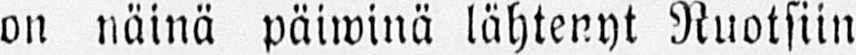on näinä päiwinä lähtenyt Ruotsiin
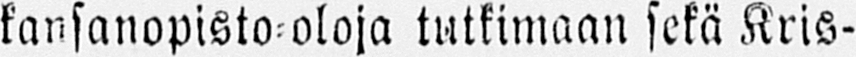kansanopisto-oloja tutkimaan sekä Kris-
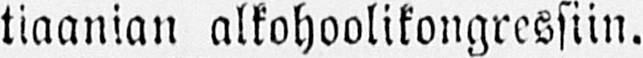tiaanian alkohoolikongressiin.
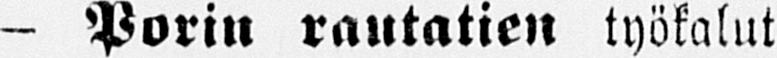— Porin rautatien työkalut
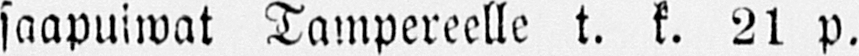saapuiwat Tampereelle t. k. 21 p.
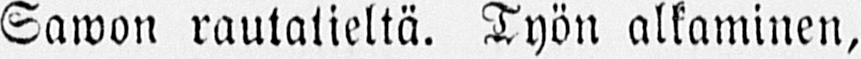Sawon rautatieltä. Työn alkaminen,
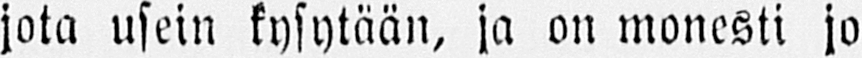jota usein kysytään, ja on monesti jo
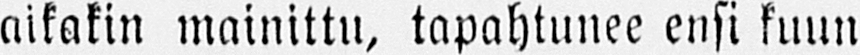aikakin mainittu, tapahtunee ensi kuun
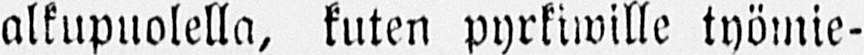alkupuolella, kuten pyrkiwille työmie-
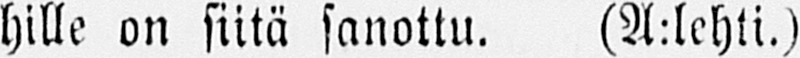hille on siitä sanottu. (A:lehti.)
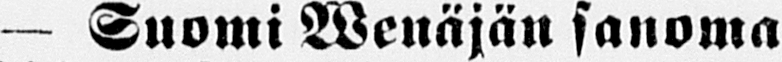— Suomi Wenäjän sanoma-
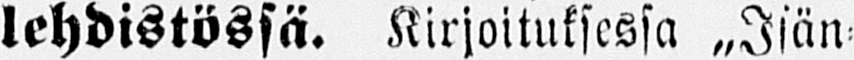lehdistössä. Kirjoituksessa „Isän-
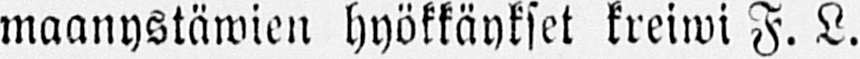maanystäwien hyökkäykset kreiwi F. L.
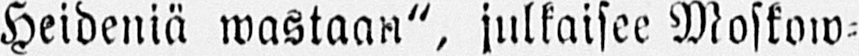Heideinä wastaan", julkaisee Moskow-
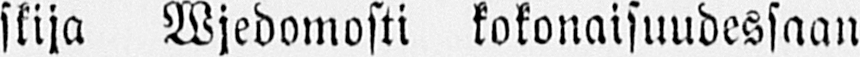skija Wjedomosti kokonaisuudessaan
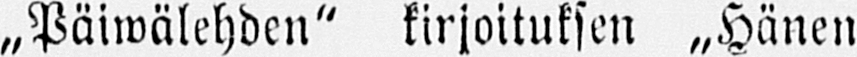„Päiwälehden" kirjoituksen „Hänen
